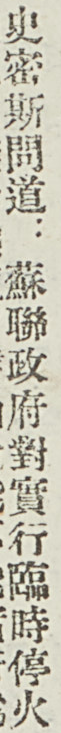史密斯問道：蘇聯政府對實行臨時停火
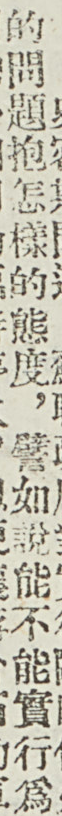的問題抱怎樣的態度，譬如說能不能實行爲
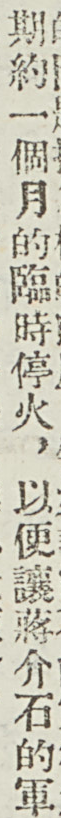期約一個月的臨時停火，以便讓蔣介石的軍
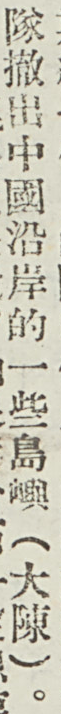隊撤出中國沿岸的一些島嶼（大陳）。
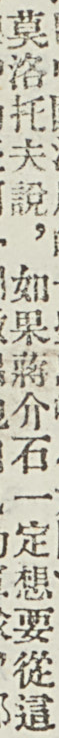莫洛托夫說，如果蔣介石一定想要從這
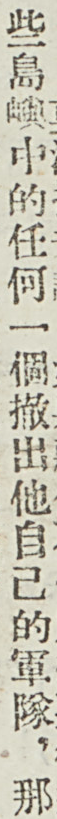些島嶼中的任何一個撤出他自己的軍隊，那
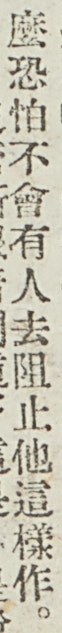麼恐怕不會有人去阻止他這樣作。
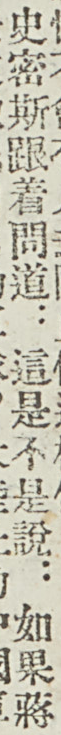史密斯跟着問道：這是不是說：如果蔣
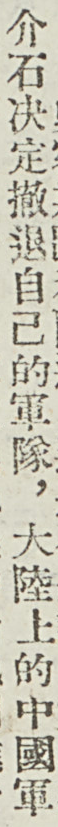介石決定撤退自己的軍隊，大陸上的中國軍
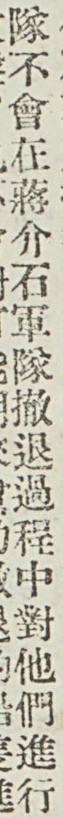隊不會在蔣介石軍隊撤退過程中對他們進行
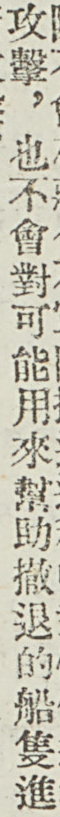攻擊，也不會對可能用來幫助撤退的船隻進
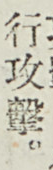行攻擊。
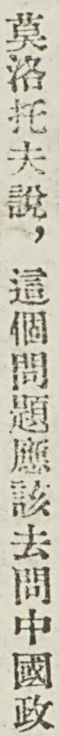莫洛托夫說，這個問題應該去問中國政
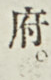府。
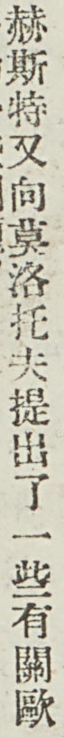赫斯特又向莫洛托夫提出了一些有關歐
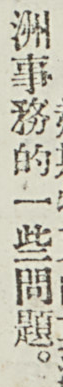洲事務的一些問題。
